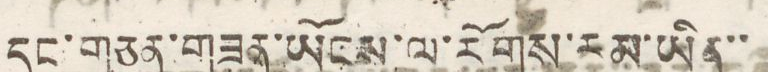དང་གཅན་གཟན་ཡོངས་ལ་རོགས་རམ་ཡིན་་
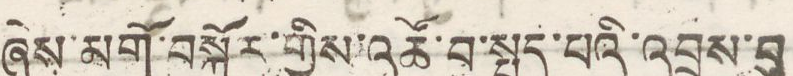ཞེས་མགོ་བསྐོར་གྱིས་འཚོ་བ་སྤྲད་པའི་འབྲས་བུ
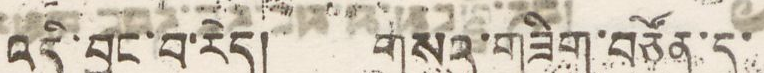འདི་བྱུང་བ་རེད། གསའ་གཟིག་བཙོན་དུ་
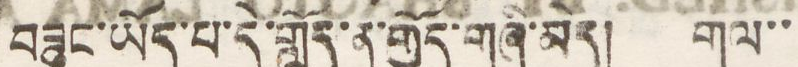བཟུང་ཡོད་པ་དེ་གློད་ན་གྱོད་གཞི་མེད། གལ་་
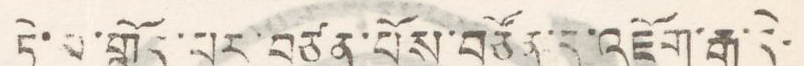ཏེ་པ་གློད་པར་བཙན་པོས་བཙོན་དུ་འཇོག་རྒྱ་དེ་
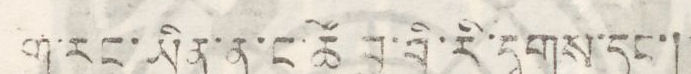ག་རང་ཡིན་ན་ང་ཚོ་བྱ་བྱི་རི་དྭགས་དང་།
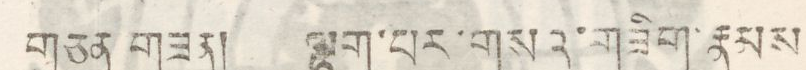གཅན གཟན། ལྷག་པར་གསའ་གཟིག་རྣམས
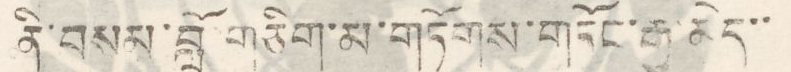ནི་བསམ་བློ་གཅིག་མ་གཏོགས་གདོང་རྒྱུ་མེད་་
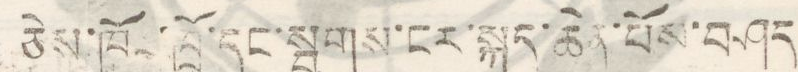ཅེས་ཁོང་ཁྲོ་དང་སྦྲགས་ངར་སྐར་ཆེན་པོས་བཤད
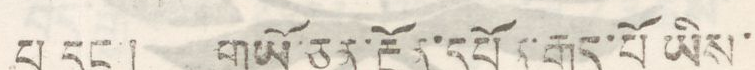པ དང་། གཡོ་ཅན་རྔོན་དཔོན་རྒད་པོ་ཡིས་
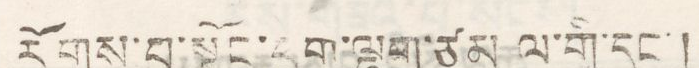རོགས་པ་སྟོང་དྲག་ལྷག་ཙམ ལ་གྲི་དང་།
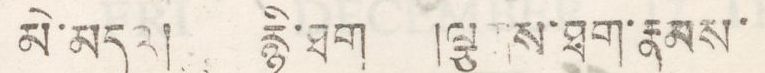མེ་མདའ། རྙི་ཐག །ལྕགས་ཐག་རྣམས་
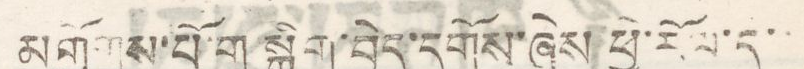མགྱོགས་པོ་གྲ་སྒྲིག་བྱེད་དགོས་ཞེས་ཕྱེ་རོལ་དུ་་
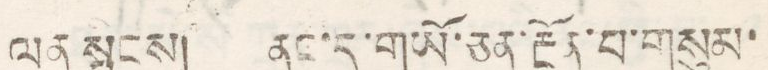ལན སྤྲངས། ནང་དུ་གཡོ་ཅན་རྔོན་བ་གསུམ་
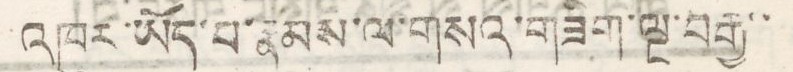འཁུར་ཡོད་པ་རྣམས་པ་གསའ་གཟིག་ལྔ་བརྒྱ་་
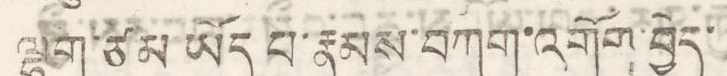ལྷག་ཙམ་ཡོད་པ་རྣམས་བཀག་འགོག་བྱེད་
